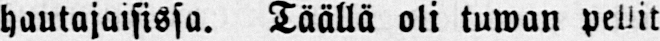hautajaisissa. Täällä oli tuwan pellit
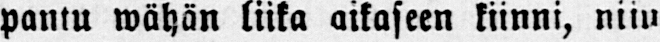pantu wähän liika aikaseen kiinni, niin
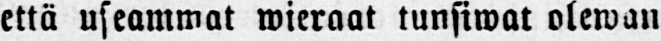että useammat wieraat tunsiwat olewan
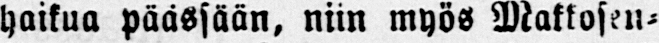haikua päässään, niin myös Makkosen-
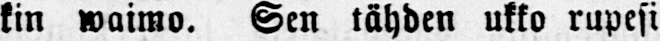kin waimo. Sen tähden ukko rupesi
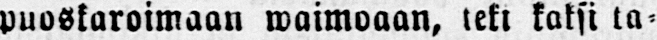puoskaroimaan waimoaan, teki kaksi ta-
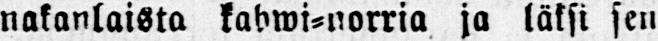nakanlaista kahwi-norria ja läksi sen
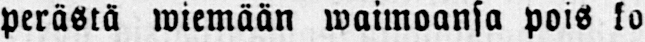perästä wiemään waimoansa pois ko-
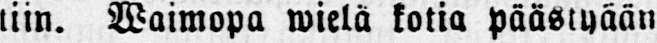tiin. Waimopa wielä kotia päästyään
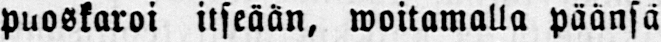puoskaroi itseään, woitamalla päänsä
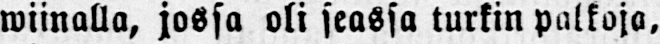wiinalla, jossa oli seassa turkin palkoja,
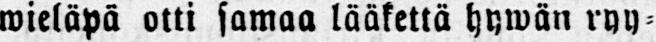wieläpä otti samaa lääkettä hywän ryy-
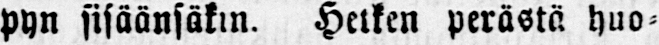pyn sisäänsäkin. Hetken perästä huo-
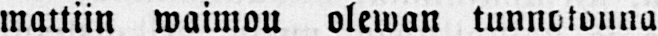mattiin waimon olewan tunnotonna
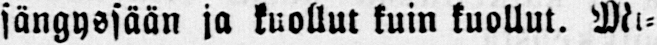sängyssään ja kuollut kuin kuollut. Mi-
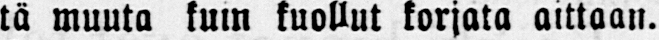tä muuta kuin kuollut korjata aittaan.
